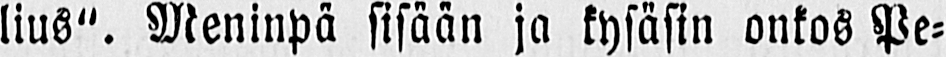lius". Meninpä sisään ja kysäsin onkos Pe-
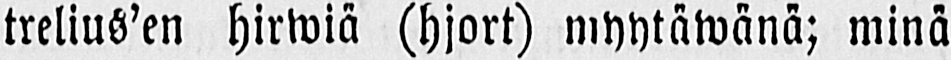trelius’en hirwiä (hjort) myytäwänä; minä
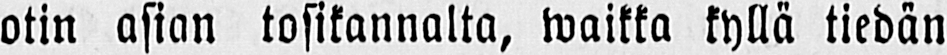otin asian tosikannalta, waikka kyllä tiedän
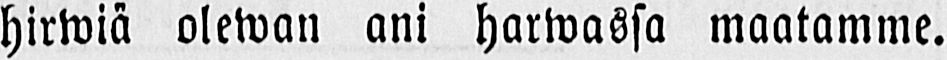hirwiä olewan ani harwassa maatamme.
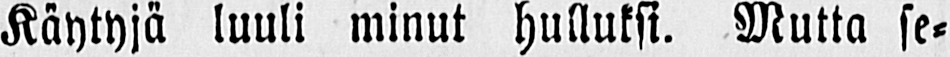Käytyjä luuli minut hulluksi. Mutta se-
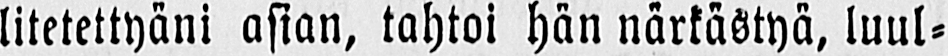litetettyäni asian, tahtoi hän närkästyä, luul-
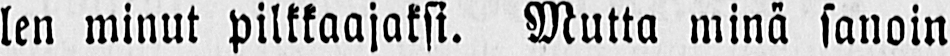len minut pilkkaajaksi. Mutta minä sanoin
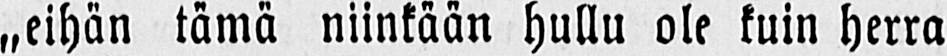„eihän tämä niinkään hullu ole kuin herra
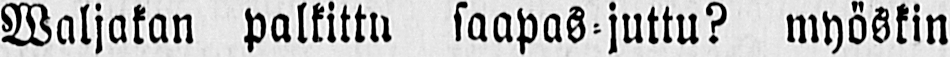Waljakan palkittu saapas-juttu? myöskin
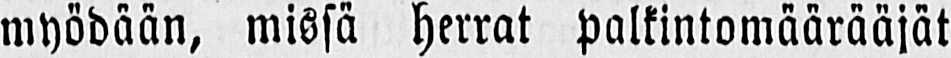myödään, missä herrat palkintomäärääjät
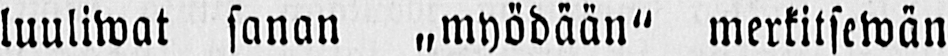luuliwat sanan „myödään" merkitsewän
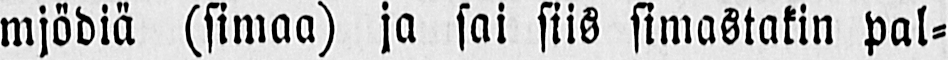mjödiä (simaa) ja sai siis simastakin pal-
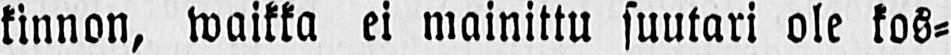kinnon, waikka ei mainittu suutari ole kos-
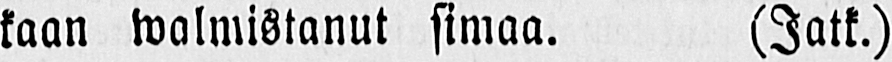kaan walmistanut simaa. (Jatk.)
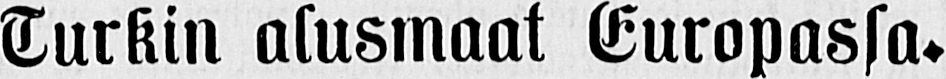Turkin alusmaat Europassa.
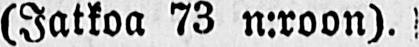(Jatkoa 73 n:roon).
